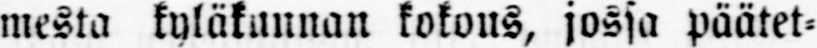mesta kyläkunnan kokous, jossa päätet-
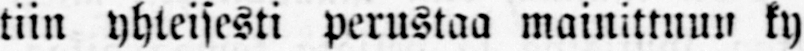tiin yhteisesti perustaa mainittuun ky-
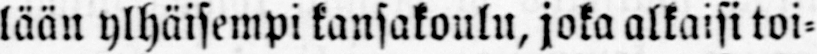lään ylhäisempi kansakoulu, joka alkaisi toi-
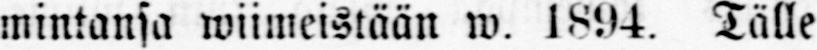mintansa wiimeistään w. 1894. Tälle
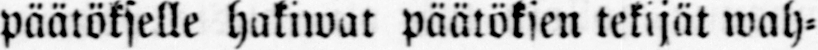päätökselle hakiwat päätöksen tekijät wah-
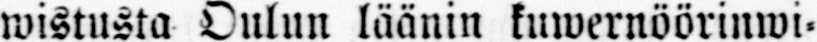wistusta Oulun läänin kuwernöörinwi-
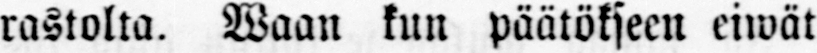rastolta. Waan kun päätökseen eiwät
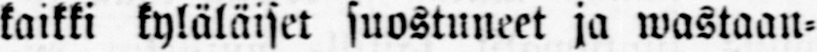kaikki kyläläiset suostuneet ja wastaan-
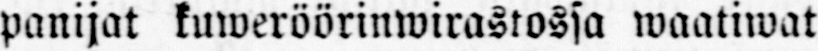panijat kuweröörinwirastossa waatiwat
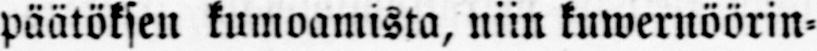päätöksen kumoamista, niin kuwernöörin-
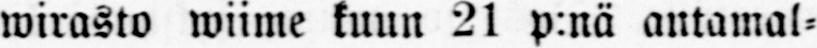wirasto wiime kuun 21 p:nä antamal-
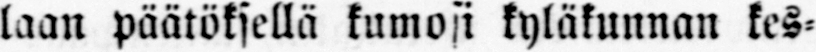laan päätöksellä kumosi kyläkunnan kes-
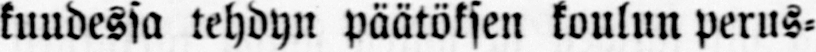kuudessa tehdyn päätöksen koulun perus-
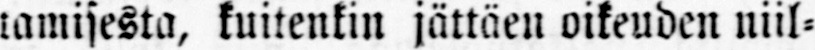tamisesta, kuitenkin jättäen oikeuden niil-
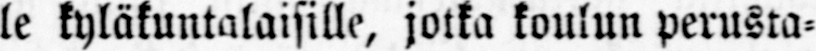le kyläkuntalaisille, jotka koulun perusta-
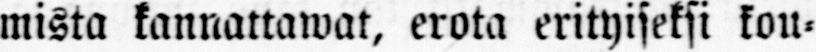mista kannattawat, erota erityiseksi kou-
